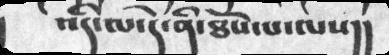འདི་ལ་དེ་ནི་ཐོས་པ་ལས།།
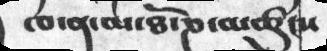ཁ་ན་མ་ཐོ་ཎ་མཚུངས
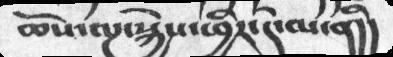ཆོས་ལྔ་སྐྱེས་ཕྱིར་དེ་ལ་ནི།།
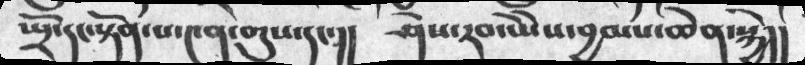སྤྲོ་དང་སྟོན་པ་༤ན་གུས་དང་།།  ཤེས་རབ་ཡཻས་བྱམས་ཆེན་སྐྱེ།།
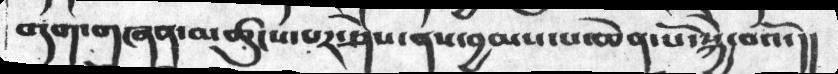བདག་གཞན་མཚུངས་པར་ཤེས་ནས་བྱམས་པ་ཆེན་པོ་སྐྱེ་བའོ་།།
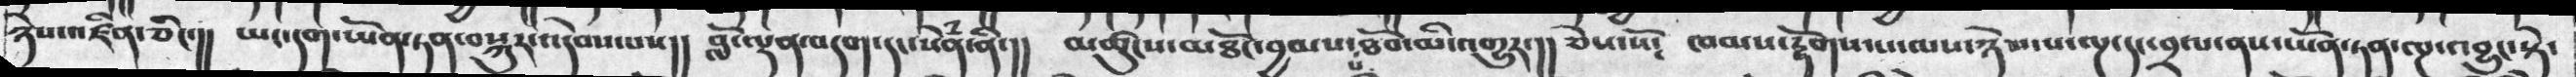ཉེས་འཛིན་ཅིང་།།  ཡང་དག་ཡོན་ཏན་བསྐུར་འདེབས་པས།།    བློ་ལྡན་བདག་དང་སེཾན་ནི་།།  མཚུངས་མཐོང་བྱམས་པ་ཐོབ་མི་འགྱུར་།།  ཅེས་སོ༴  ཁམས་རྟོགས་པ་ལས་ཉེས་པ་ལྔ་དང་བྲལ་ནས་ཡོན་ཏན་ལྔ་འབྱུང་སྟེ་
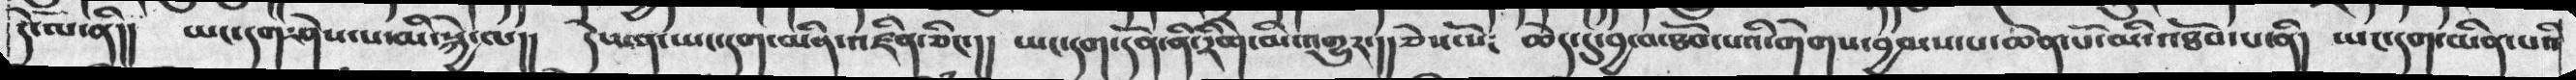དེ་ལ་ནི།། ཡང་དག་ཤེས་པ་མི་སྐྱེ་ལ།། དེས་ན་ཡང་དག་མིན་འཛིན་ཅིང་།། ཡང་དག་དོན་ནི་རིག་མི་འགྱུར་།།ཅེས་སོ༴ ཆེད་དུ་བྱ་བ་ཐོབ་པའི་གེགས་བྱམས་པ་ཆེན་པོ་མི་འཐོབ་པ་ནི། ཡང་དག་མིན་པའི
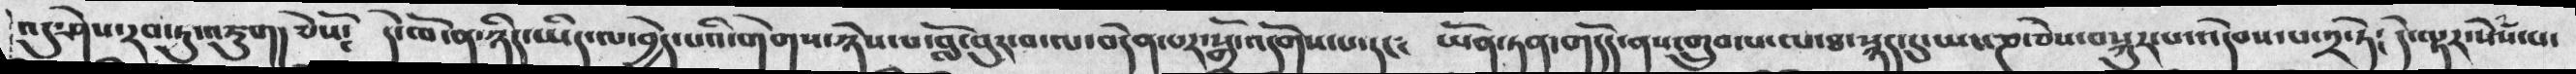འདུ་ཤེས་རབ་ཏུ་འཇུག། ཅེསོ༴ དེ་ལོ་ན་ཉིད་ཡིད་ལ་བྱེད་པའི་གེགས་ཉེས་པ་བློ་བུར་བ་ལ་བདེན་པར་སྒྲོ་འདོགས་པ་དང༴ ཡོན་ཏན་གདོད་ནས་གྲུབ་པ་ལ་ཐ་སྙད་དུ་ཡང་ཎ་ཅེས་བསྐུར་པ་འདེབས་པ་༢་ཏེ༴ དེ་ལྟར་སེཾས་པ་
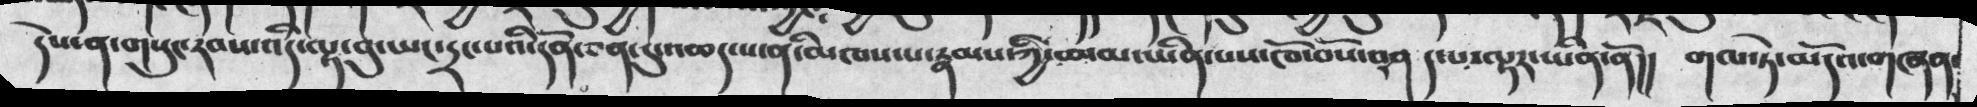དེས་ན་གསུངས་རབས་འདི་ལྟ་བུ་ཡང་དྲང་པའི་དོན་ཅན་དུ་འཆད་པ་ནི་མཁས་པ་རྣམས་ཀྱི་ཆ་མ་ཡིན་པས་ཁོ་བོས་བཤད་པ་ལྟར་ཡིན་ནོ།།  གལ་ཏེ་མདོའ་གཞན་
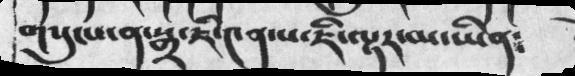གསུངས་ན་སྒྲ་ཇི་༤ན་པ་ཇི་ལྟར་མ་ཡིན༴
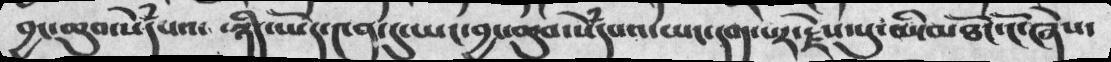བྱང་ཆུབ་སེཾདཔའ་ ཉིད་ཡོད་༤ན་དུ་ཡང་བྱང་ཆུབ་སེཾདཔའ་ཡང་དག་པར་རྗེས་སུ་མི་མཐོང་ངོ་ཞེས་
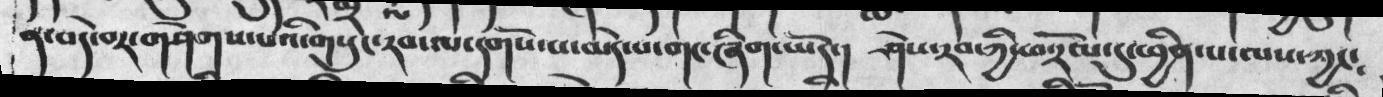ན་བདེ་བར་གཤེགས་པའི་གསུང་རབ་ལ་དགོས་པ་མེད་པ་གང་ཞིག་ཡོད་། ཤེས་རབ་ཀྱི་ཕ་རོལ་དུ་ཕྱིན་པ་ལས་ཀྱང༴
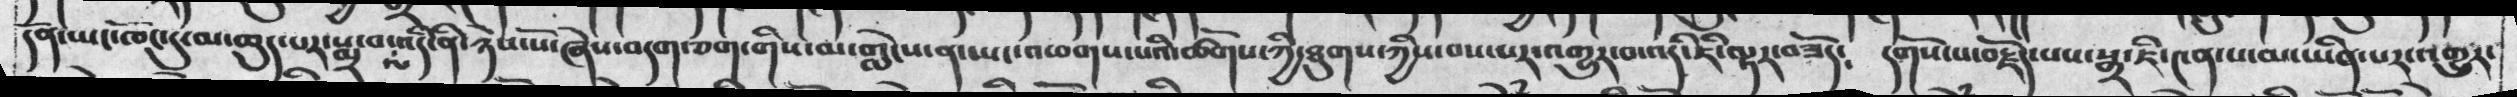དོན་ཡང་ཁོང་དུ་མ་ཆུད་པར་སྨྲ་བ་ལ་འདི་ནི་ཉེས་སོ་ཞེས་བདག་ཅག་གིས་མ་གླེངས་ན་ཡང་འཕགས་པའི་ཚོགས་ཀྱི་ཐུགས་ཀྱིས་བས་པར་འགྱུར་བ་འདི་ཇི་ལྟར་བཟོད༴   དགོས་པ་བརྗོད་པས་སྒྲ་ཇི་༤ན་པ་མ་ཡིན་པར་འགྱུར་
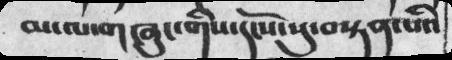མ་ལ་གཞུང་གིས་དངོས་སུ་བསྟན་པའི
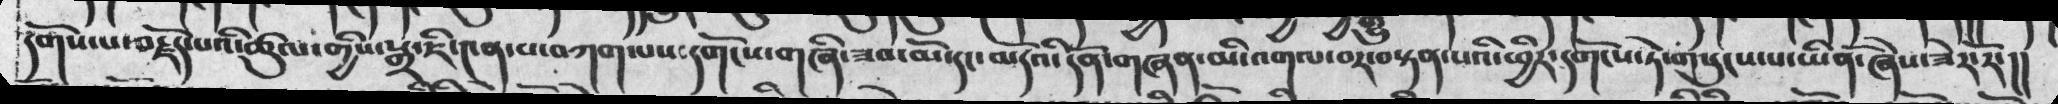དགོས་པ་བརྗོད་པའི་ཚུལ་གྱིས་སྒྲ་ཇི་༤ན་པ་བཀག་པས་དགོངས་གཞི་ཟབ་མོ་དང་མདོའི་དོན་གཞན་མི་འགལ་བར་བསྟན་པའི་ཕྱིར་དགོངས་ཏེ་གསུངས་པ་ཡིནོ་ཞེས་ཟེར་རོ་།།
